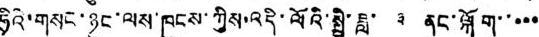ཧྲིའི་གསང་ཉུང་ལས་ཁུངས་ཀྱིས་འདི་ལོའི་སྤྱི་ཟླ་ ༣ ནང་ལྐོག་་་་་
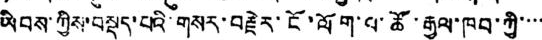ཡིབས་ཀྱིས་བསྡད་པའི་གསར་བརྗེར་ངོ་ལོག་པ་ཚོ་རྒྱལ་ཁབ་ཀྱི་་་་
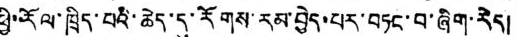ཕྱི་རོལ་ཁྲིད་པའི་ཆེད་དུ་རོགས་རམ་བྱེད་པར་བཏང་བ་ཞིག་རེད།
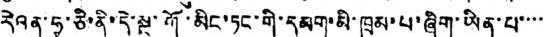རེའན་ཧྭ་ཅི་ནི་དེ་སྔ་ཀོ་མིང་ཏང་གི་དམག་མི་ཁྲམ་པ་ཞིག་ཡིན་པ་་་་
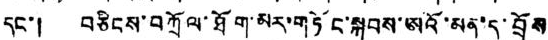དང་། བཅིངས་བཀྲོལ་ཐོག་མར་གཏོང་སྐབས་ཨའོ་མན་དུ་བྲོས
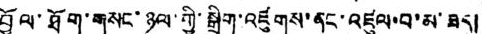བྱོལ་ཐོག་གསང་ཉུལ་གྱི་སྒྲིག་འཛུགས་ནང་འཛུལ་བ་མ་ཟད།
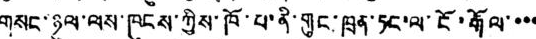གསང་ཉུལ་ལས་ཁུངས་ཀྱིས་ཁོ་པ་ནི་གུང་ཁྲན་ཏང་ལ་ངོ་རྒོལ་་་་
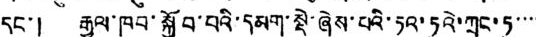དང་། རྒྱལ་ཁབ་སྐྱོབ་བའི་དམག་སྡེ་ཞེས་པའི་ཏའ་ཏུའེ་ཀྲང་ཏུ་་་་
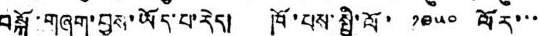བསྐོ་གཞག་བྱས་ཡོད་པ་རེད། ཁོ་པས་སྤྱི་ལོ་ ༡༩༥༠ ལོར་་་
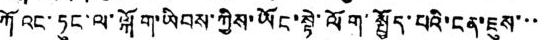ཀོའང་ཏུང་ལ་ལྐོག་ཡིབས་ཀྱིས་ཡོང་སྟེ་ལོག་སྤྱོད་པའི་ངན་ཇུས་་་
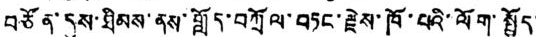བཙོན་དུས་ཐིམས་ནས་གློད་བཀྲོལ་བཏང་རྗེས་ཁོ་པའི་ལོག་སྤྱོད་
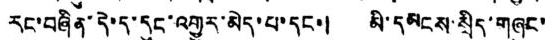རང་བཞིན་དེ་ད་དུང་འགྱུར་མེད་པ་དང་། མི་དམངས་སྲིད་གཞུང་
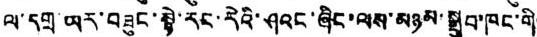ལ་དགྲ་ཡར་བཟུང་སྟེ་རང་རེའི་ཤའང་ཞིང་ལས་མཉམ་སྒྲུབ་ཁང་གི་
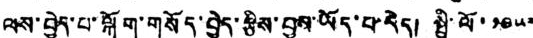ལས་བྱེད་པ་ལྐོག་གསོད་བྱེད་རྩིས་བྱས་ཡོད་པ་རེད། སྤྱི་ལོ་ ༡༩༥༧
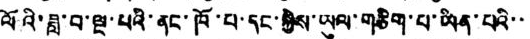ལོའི་ཟླ་བ་ལྔ་པའི་ནང་ཁོ་པ་དང་སྐྱེས་ཡུལ་གཅིག་པ་ཡིན་པའི་་་
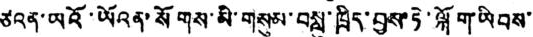ཙའན་ཡའོ་ཡོའན་སོགས་མི་གསུམ་བསླུ་ཁྲིད་བྱས་ཏེ་ལྐོག་ཡིབས་
